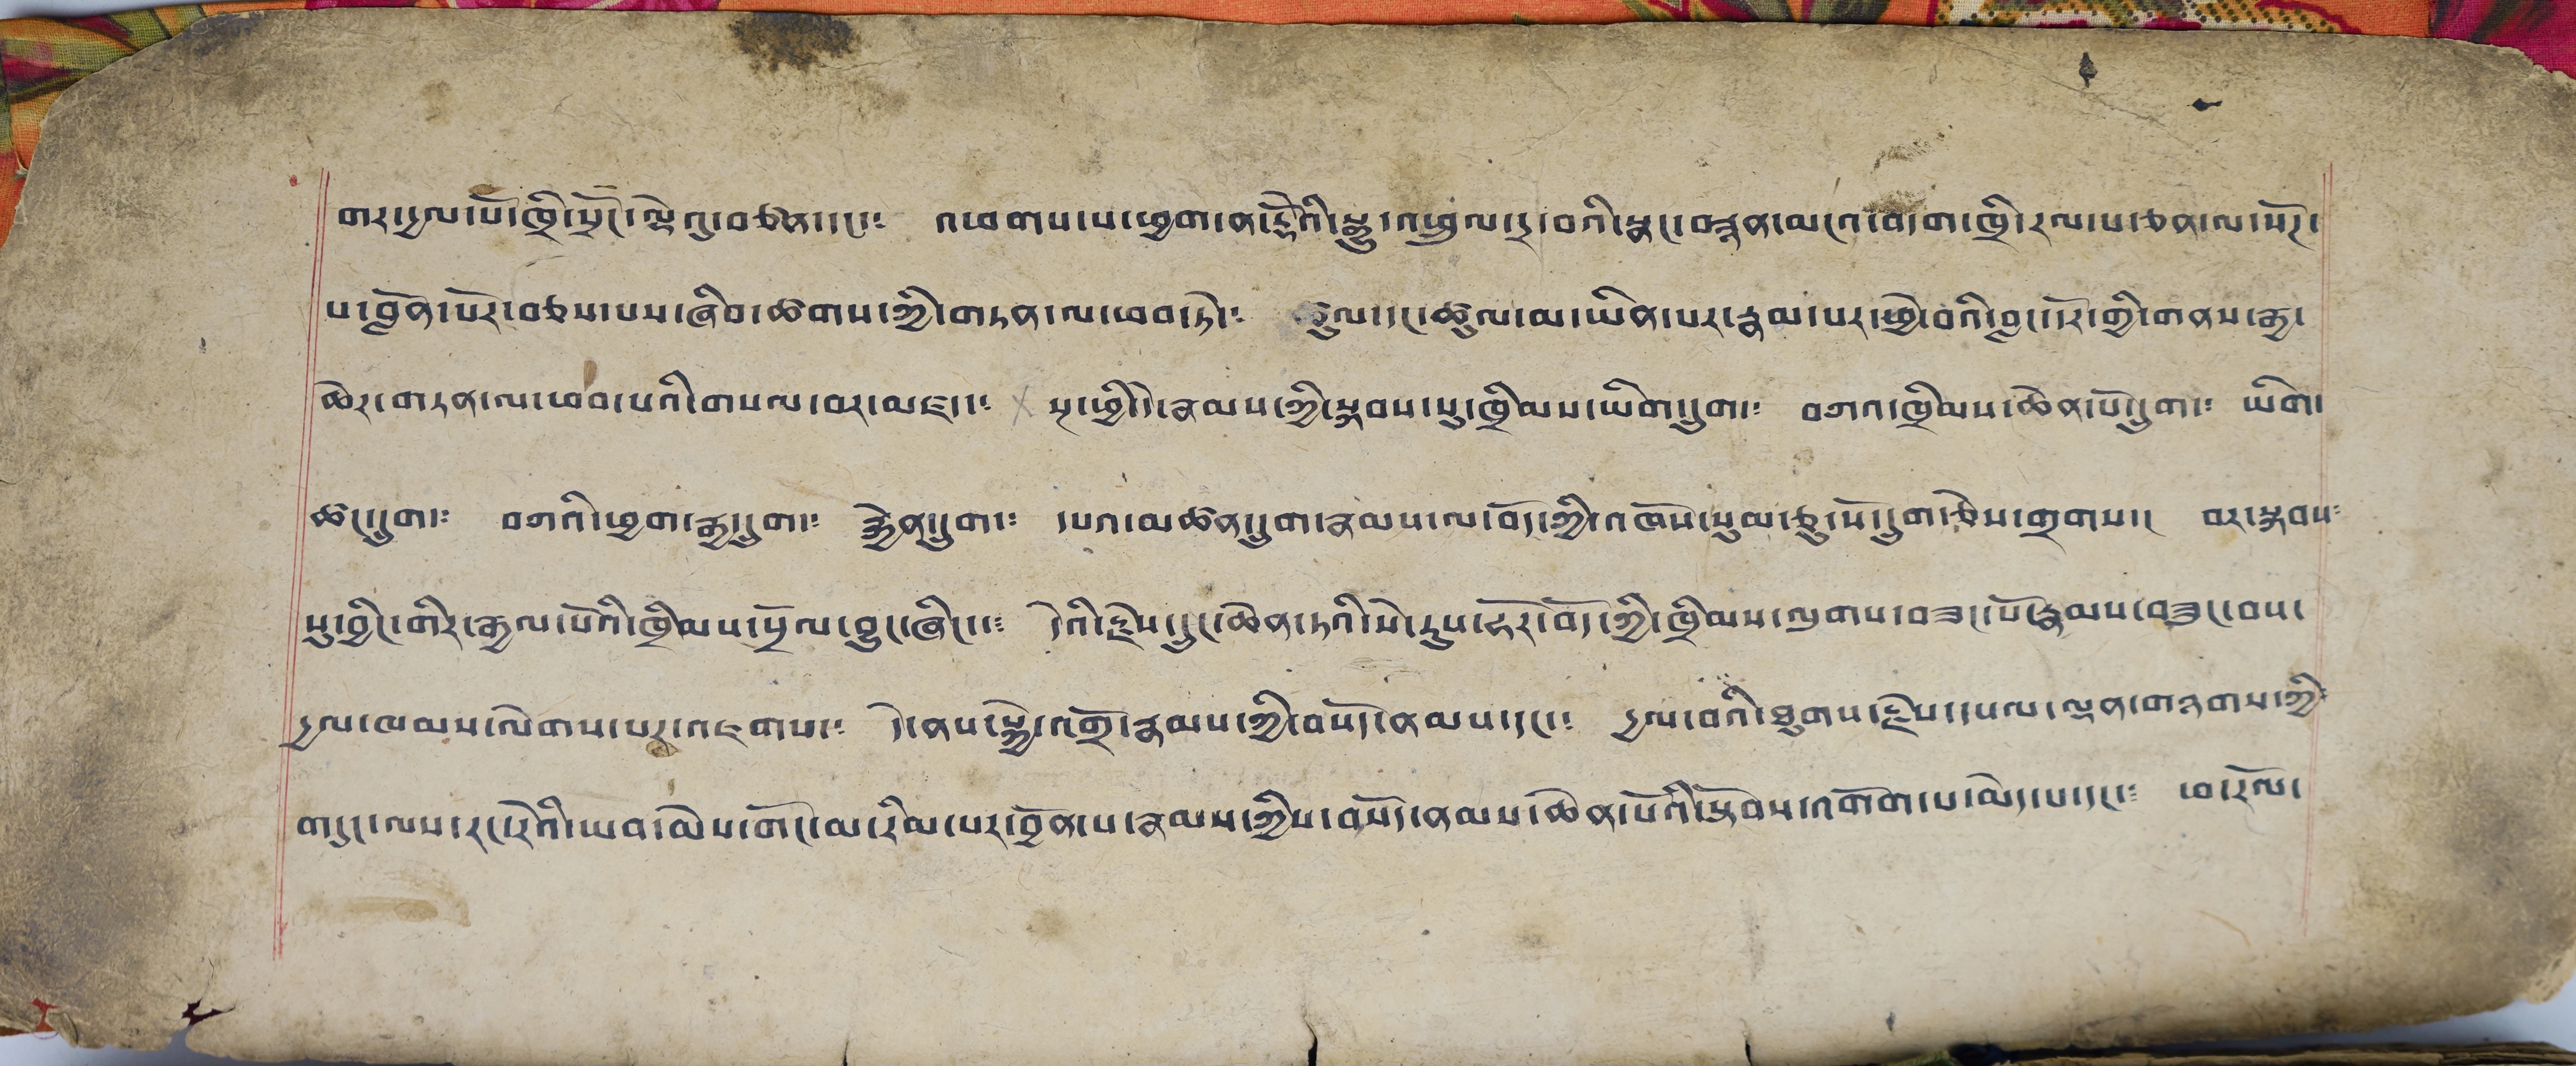གར་དྱལ་པོ་ཁྲི་སྲོང་ལྡེའུ་བཙན་དང་༴ འཕགས་པ་ཕྱག་ན་རྡོ་རྗེའི་སྒྱུ་འའཕྲུལ་དྲ་བའི་སྣང་བརྙན་མངའ་བདག་ཁྲི་རལ་པ་ཅན་ལ་སོཊ་
པ་བློན་པོར་བཅས་པས་ཞིབ་ཚགས་ཀྱི་གཏན་ལ་ཕབ་སྟེ་༴ ཚུལ་དང་ཚུལ་མ་ཡིན་པར་རྣམ་པར་ཕྱེ་བའི་བླང་དོར་གྱི་གནས་རྒྱ་
ཆེར་གཏན་ལ་ཕབ་པའི་གསལ་བར་མཛད་༴ སྔ་ཕྱི་དེ་རྣམས་ཀྱི་སྐབས་སུ་ཁྲིམས་ཡིག་དྲུག་༴ བཀའ་ཁྲིམས་ཆེན་པོ་དྲུག་༴ ཡིག་
ཚང་དྲུག་༴ བཀའི་ཕྱག་རྒྱ་དྲུག་༴ རྐྱེན་དྲུག་༴ དཔའ་མཚན་དྲུག་རྣམས་ལ་བོད་ཀྱི་འཁོས་སུམ་ཅུ་སོ་དྲུག་ཅེས་གྲགས། བར་སྐབས༴
སུ་བྱིང་གིར་རྒྱལ་པོའི་ཁྲིམས་སྲོལ་བྱུང་ཞིང་༴ དེའི་རྗེས་དྲུང་ཆེན་ཏའི་སེ་ཏུས་ཧོར་བོད་ཀྱི་ཁྲིམས་ལུགས་བཟང་པོ་རྣམས་བཟུང་བས་
དྱལ་ཁམས་ལེགས་པར་འཇགས་༴ དེ་ནས་སྐྱེ་འགྲོ་རྣམས་ཀྱི་བསོད་ནམས་དང་༴ དྱལ་བའི་ཐུགས་རྗེས་དཔལ་ལྡན་གཉགས་ཀྱི༴
གདུང་ལས་རང་རེའི་ཡབ་མེས་གོང་མ་རིམ་པར་བྱོན་པ་རྣམས་ཀྱིས་བསོད་ནམས་ཆེན་པོའི་སྟོབས་འགོག་པ་མེད་པ་དང་༴ ཕ་རོལ་
